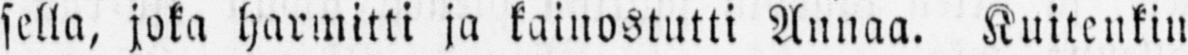sella, joka harmitti ja kainostutti Annaa. Kuitenkin
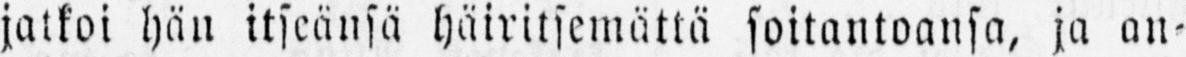jatkoi hän itseänsä häiritsemättä soitantoansa, ja an-
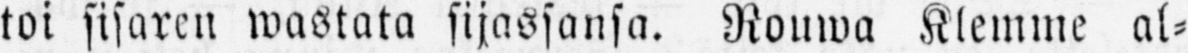toi sisaren wastata sijassansa. Rouwa Klemme al-
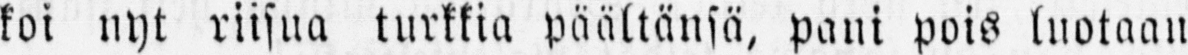koi nyt riisua turkkia päältänsä, pani pois luotaan
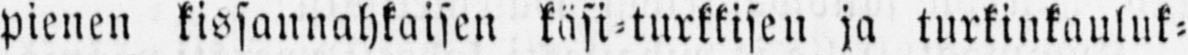pienen kissannahkaisen käsi-turkkisen ja turkinkauluk-
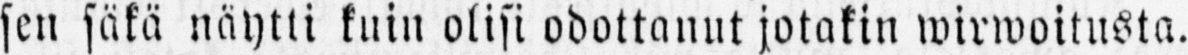sen säkä näytti kuin olisi odottanut jotakin wirwoitusta.
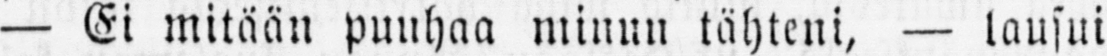— Ei mitään puuhaa minun tähteni, — lausui
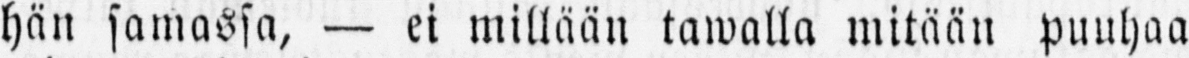hän samassa, — ei millään tawalla mitään puuhaa
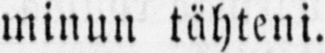minun tähteni.
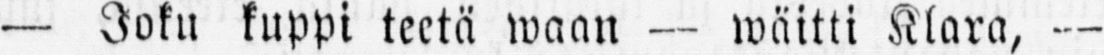— Joku kuppi teetä waan — wäitti Klara, —
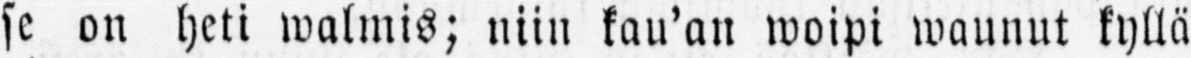se on heti walmis; niin kau'an woipi waunut kyllä
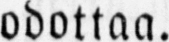odottaa.
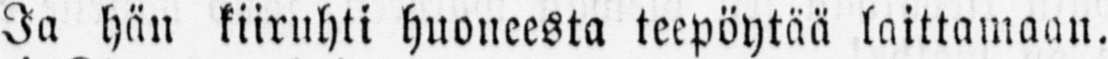Ja hän kiiruhti huoneesta teepöytää laittamaan.
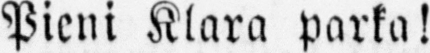Pieni Klara parka!
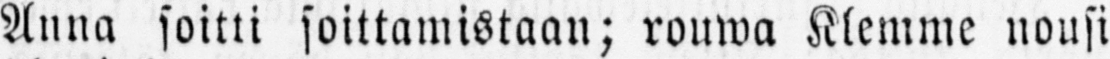Anna soitti soittamistaan; rouwa Klemme nousi
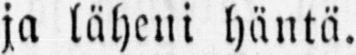ja läheni häntä.
